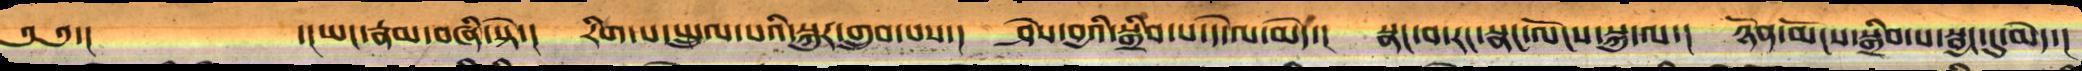༄༄་།         ་།ཡང་རྣམ་བཞི་སྟེ་།  རིག་པ་སྤྲུལ་པའི་སྐུར་གྲུབ་པས་།  ཤེས་བྱའི་སྒྲིབ་པ་དེ་ལ་མེད་།  སྣང་བ་རང་སྣང་ལོངས་སྐུ་ལ་།  ཉོན་མོངས་སྒྲིབ་པ་སྦྱང་དུ་མེད་།
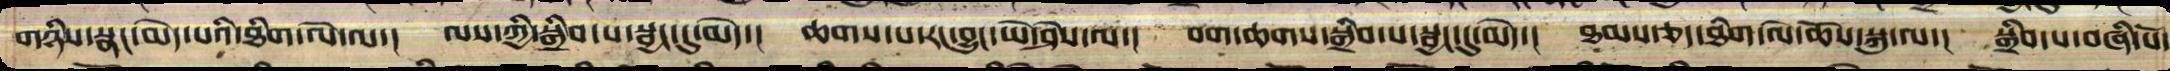གཉིས་སྣང་མེད་པའི་ཐིག་ལེ་ལ་།  ལས་ཀྱི་སྒྲིབ་པ་སྦྱང་དུ་མེད།  ཆགས་པ་རང་བྱུང་ཡེ་ཤེས་ལ་།  བག་ཆགས་སྒྲིབ་པ་སྦྱང་དུ་མེད་།  ཐམས་ཅད་ཐིག་ལེ་ཆོས་སྐུ་ལ་།  སྒྲིབ་པ་བཞི་པོ་
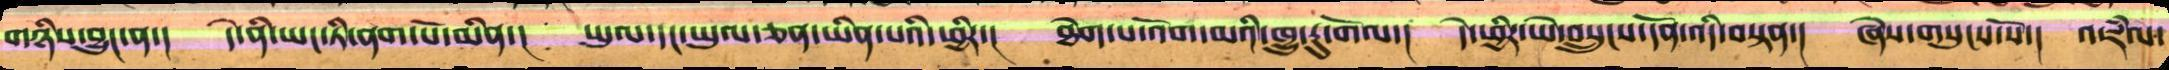གཉིས་བྱུང་ན་།   དེ་ནི་ཡང་ཏི་ནག་པོ་མིན་།  ཡུལ་དང་ཡུལ་ཅན་ཡིན་པའི་ཕྱིར་།  ཐེག་པ་འོག་མའི་ཁྱུ་རུ་གོལ་།  དེ་ཕྱིར་ཡེ་བསྲུངས་དོན་འདི་བསྟན་།  ཞེས་གསུངས་སོ་།  འཇཾལ་
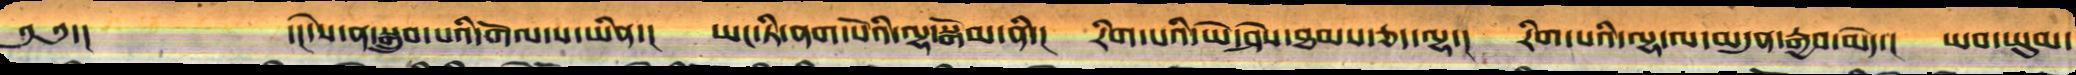༄༄་།         ་།དེས་ན་སྒྲུབ་པའི་གོལ་ས་ཡིན་།  ཡང་ཏི་ནག་པོའི་ལྷ་སྒོམ་ནི་།  རིག་པའི་ཡེ་ཤེས་ཐམས་ཅད་ལྷ་།  རིག་པའི་ལྷ་ལ་མདུན་རྒྱབ་མེད་།  ཡབ་ཡུམ་
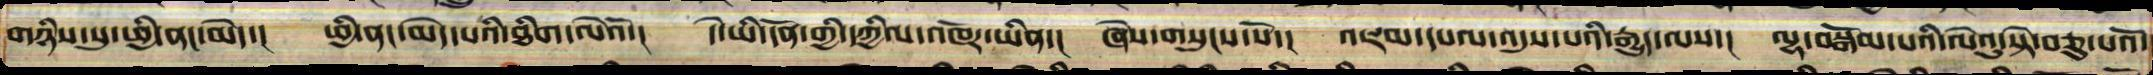གཉིས་སུ་ཕྱི་ནང་མེད་།  ཕྱི་ནང་མེད་པའི་ཐིག་ལེའོ་།   དེ་ནི་དོན་གྱི་དཀྱིལ་འཁོར་ཡིན་།  ཞེས་གསུངས་སོ་།  འཇམ་དཔལ་འདུས་པའི་རྒྱུད་ལས་།  ལྷ་བསྒོམ་པའི་ལེའུ་སྟེ་བཅུ་པའོ་
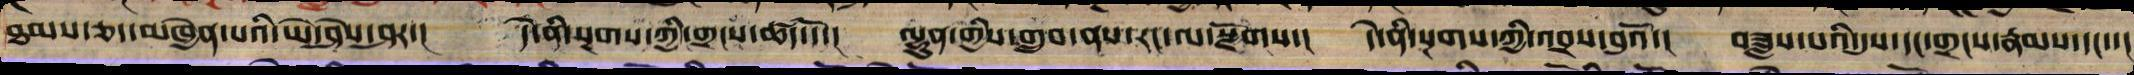ཐམས་ཅད་མཁྱེན་པའི་ཡེ་ཤེས་ཤར་།    དེ་ནི་སྔགས་ཀྱི་གྲངས་ཚད་དོ་།  ལྷུན་གྱིས་གྲུབ་ནས་རང་ལ་སྫོགས་།  དེ་ནི་སྔགས་ཀྱི་འབྲས་བུའོ་།  བཟླས་པའི་དུས་དང་གྲངས་རྣམས་དང་་།
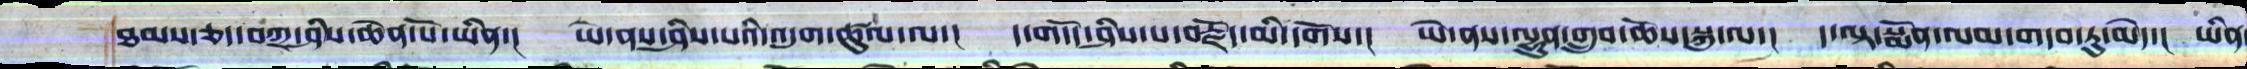ཐམས་ཅད་བཀྲ་ཤིས་ཆེན་པོ་ཡིན་།  ཡེ་ནས་ཤིས་པའི་འདུག་ཚུལ་ལ་།  ད་གདོད་ཤིས་པ་བརྗོད་མི་དགོས་།  ཡེ་ནས་ལྷུན་གྲུབ་ཆོས་སྐུ་ལ་། ད་ལྟ་སྨོན་ལམ་གདབ་ཏུ་མེད་། ཡིན
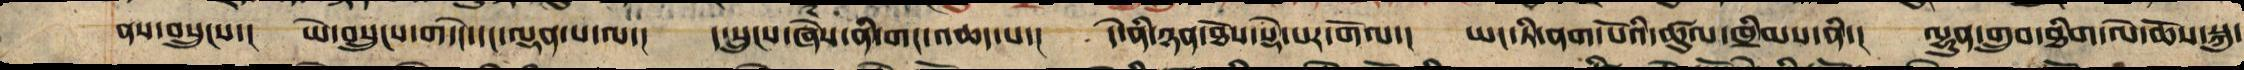ནས་བསྲུངས།  ཡེ་བསྲུངས་གདེང་དང་ལྡན་པ་ལ་།  དེ་བསྲུངས་ཞེས་ནི་གང་འཆད་པ་།    དེ་ནི་ཉན་ཐོས་སྡེ་པར་གོལ་།    ཡང་ཏི་ནག་པོའི་ཚུལ་ཁྲིམས་ནི་།   ལྷུན་གྲུབ་ཐིག་ལེ་ཆོས་སྐུ་
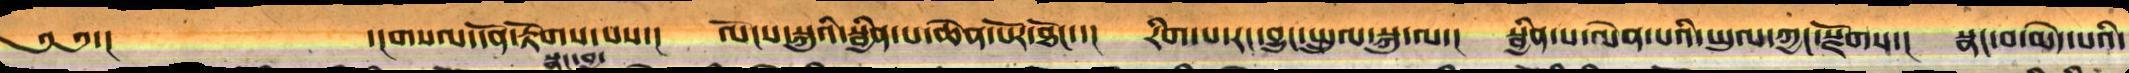༄༄་།     ་།གསལ་དོན་རྟོགས་པས་།  ལོངས་སྐུའི་སྦྱིན་པ་ཆེན་པོར་ཐོང་་།  རིག་པ་རང་བྱུང་སྤྲུལ་སྐུ་ལ་།  སྦྱིན་པ་ལེན་པའི་ཡུལ་ཀྱང་སྫོགས་།  སྣང་བ་མེད་པའི་
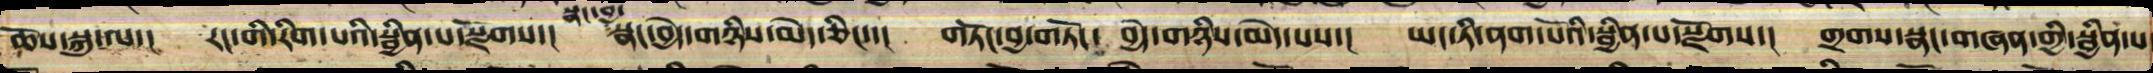ཆོས་སྐུ་ལ་།  རང་གི་རིག་པའི་སྦྱིན་པ་སྫོགས་།  སྣང་བྱ་སྣང་བྱེད་གཉིས་མེད་ཅིང་་།  གཏང་བྱ་གཏོང་བྱེད་གཉིས་མེད་པས་།   ཡང་ཏི་ནག་པོའི་སྦྱིན་པ་སྫོགས་།  གྲགས་སྣང་གཞན་གྱི་སྦྱིན་པ་
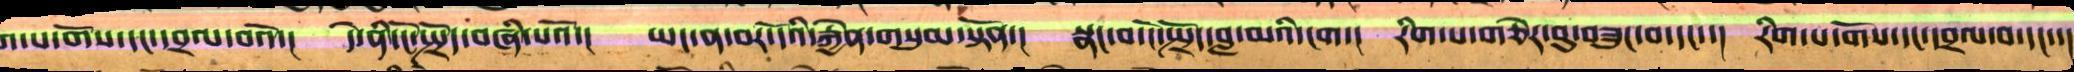ག་པ་གོས་དང་དབྲལ་བའོ་།  དེ་ནི་ངོ་སྤྲོད་བཞི་པའོ་།  ཡང་ན་བར་དོའི་རྐྱེན་གསུམ་སྟོན་།  སྣང་བ་ངོ་སྤྲོད་བླ་མའི་ངག་།  རིག་པ་གཅེར་བུ་བཟུང་བ་དང་་།  རིག་པ་གོས་དང་དབྲལ་བ་དང་་།
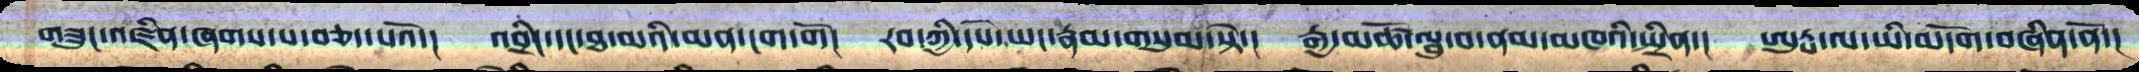གཟུང་འཛིན་ཞགས་པ་བཅད་པའོ་།   འབྲིང་དང་ཐ་མའི་མན་ངག་གོ།  རབ་ཀྱི་དཔེ་ཡང་རྣམ་གསུམ་སྟེ་།  རྒྱ་མཚོའི་ལྦུ་བ་ནམ་མཁའི་སྤྲིན་།  ཨུཏྤ་ལ་ཡི་མདོག་བཞིན་ནོ་།
